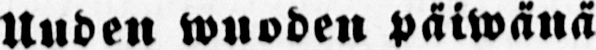Uuden wuoden päiwänä
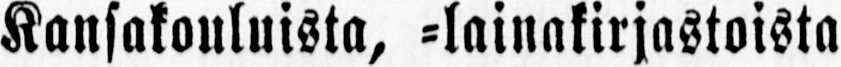Kansakouluista, -lainakirjastoista
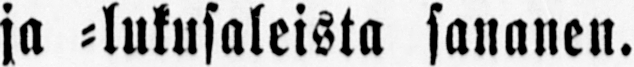ja -lukusaleista sananen.
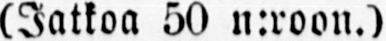(Jatkoa 50 n:roon.)
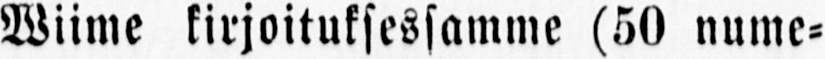Wiime kirjoituksessamme (50 nume-
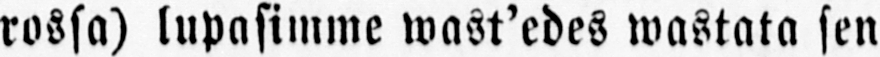rossa) lupasimme wast'edes wastata sen
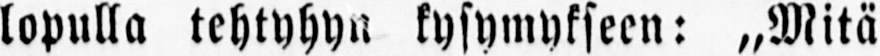lopulla tehtyhyn kysymykseen: „Mitä
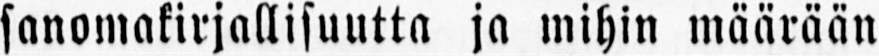sanomakirjallisuutta ja mihin määrään
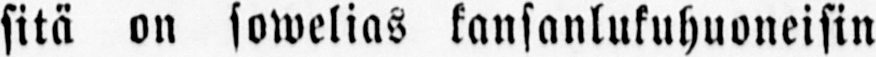sitä on sowelias kansanlukuhuoneisin
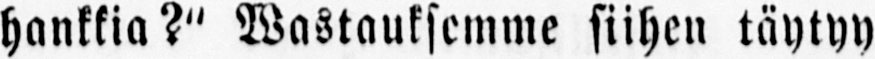hankkia?" Wastauksemme siihen täytyy
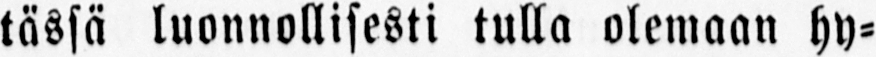tässä luonnollisesti tulla olemaan hy-
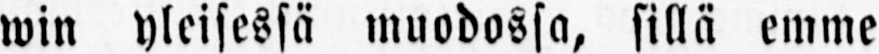win yleisessä muodossa, sillä emme
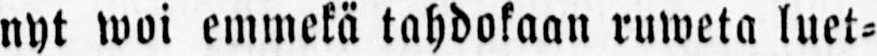nyt woi emmekä tahdokaan ruweta luet-
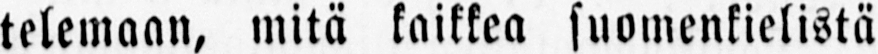telemaan, mitä kaikkea suomenkielistä
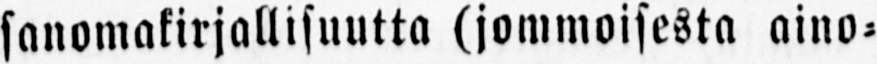sanomakirjallisuutta (jommoisesta aino-
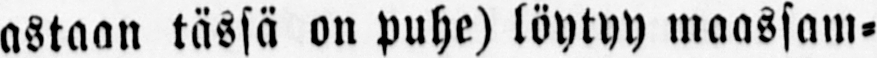astaan tässä on puhe) löytyy maassam-
